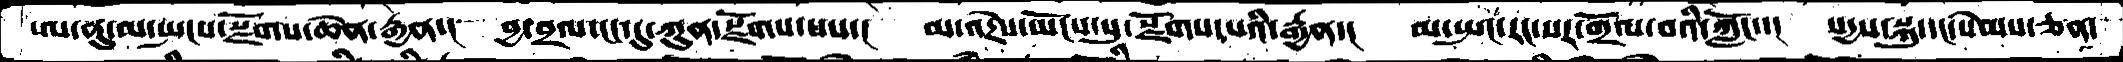ཨ་ནུ་མ་སྤངས་སྫོགས་ཆེན་རྒྱན་།  བྱ་བྲལ་ངང་དུ་ཀུན་སྫོགས་པས་།  མ་འདྲེས་ཡོངས་སུ་སྫོགས་པའི་རྒྱན་།  མ་སྤང་རང་སར་གྲོལ་བའི་ཀློང་་།  སདྱས་སྐུ་དང་སེམས་ཅན་
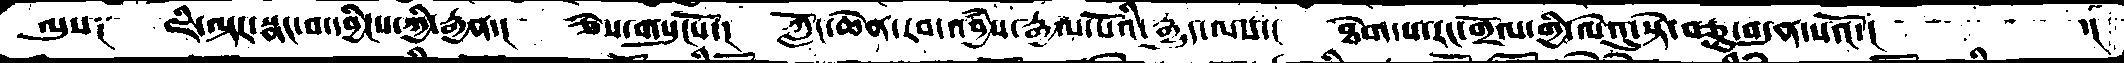ལུས་༑  ཇི་ལྟར་སྣང་བ་དབྱིངས་ཀྱི་རྒྱན་།  ཅེས་གསུངསོ་།  ཀློང་ཆེན་རབ་འབྱཾས་རྒྱལ་པོའི་རྒྱུད་ལས་།  ཐེག་པ་རང་གྲོལ་གྱི་ལེའུ་སྟེ་བཅུ་བདུན་པའོ་།     ་།
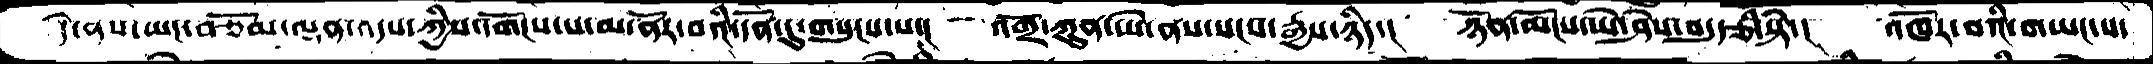དེ་ནས་ཡང་བཅོམ་ལྡན་འདས་ཀྱིས་དགོངས་པ་མ་ནོར་བའི་དོན་དུ་གསུངས་པ་།  འགྲོ་ཀུན་ཡེ་ནས་སངས་རྒྱས་ཉིད་།  ཉོན་མོངས་ཡེ་ཤེས་བདུད་རྩི་སྟེ་།  འཁོར་བའི་གཡང་ས་
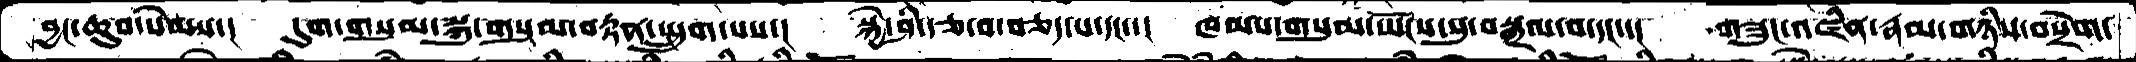བྱང་ཆུབ་སེམས་།  དུག་གསུམ་སྐུ་གསུམ་བརྟན་སྤྲུག་པས་།  སྐྱེ་ཤི་རྩ་བ་བཅད་པ་དང་་། ཁམས་གསུམ་ཡོངས་སུ་བསྒྲལ་བ་དང་་།  གཟུང་འཛིན་རྣམ་གཉིས་བསྲེག་
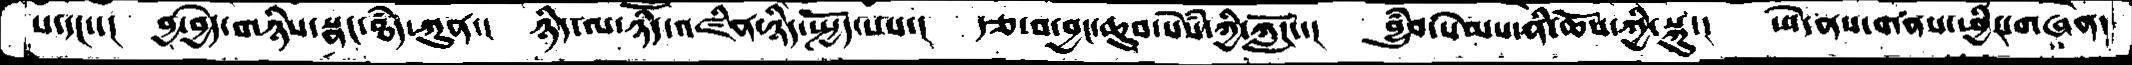པ་དང་་།  བྱ་བྱེད་གཉིས་སྣང་ཐཾད་ཀུན་།  ཉིད་ལ་ཉིད་འཛིན་ཉིད་སྤྱོད་པས་།  རྩ་བ་བྱང་ཆུབ་སེཾས་ཀྱི་ཀློང་་།  བྱུཾབ་སེམས་ནི་ཆོས་ཀྱི་སྐུ་།  ཡེ་ནས་གནས་ཕྱིར་གཞན་
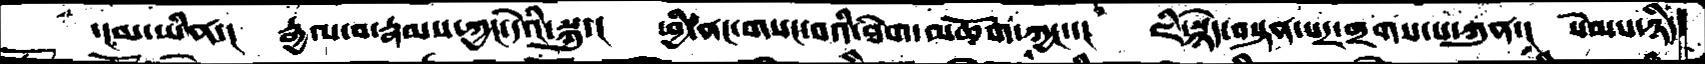་།མ་ཡིན་།  རྒྱལ་བ་རྣམས་ཀྱང་དེའི་སྐུ་།  ཕྱི་ནང་གསང་བའི་ཐེག་མཆོག་ཀྱང་་།  ཇི་སྙེད་བསྟན་པར་གྲགས་པ་ཀུན་།  སེམས་ཉིད་
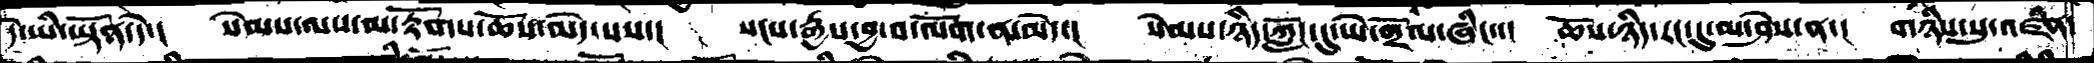དེ་ཡི་ཡྟོན་དེ་།  སེམས་ལས་མ་རྟོགས་ཆོས་མེད་པས་།  སངས་རྒྱས་བྱ་བ་ལོག་ན་མེད་།  སེམས་ཉིད་ཀློང་དུ་ཡེ་གྲོལ་ཞིང་་།  ཆོས་ཉིད་རང་དུ་མ་ཤེས་ན་།  གཉིས་སུ་འཛིན་
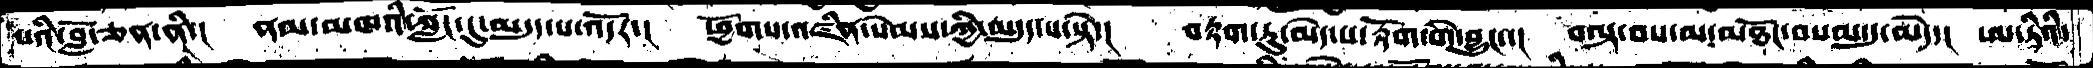པའི་བློ་ཅན་ནི་།  ནམ་མཁའི་ཀློང་དུ་མདུད་པ་འདོར་།  ཕྱོགས་འཛིན་སེམས་ཀྱི་མདུད་པ་སྟེ་།  བརྟག་ཏུ་མེད་པ་རྟོག་ག་ེབྱུང་་།  བལྟ་བས་མ་མཐོང་བསལ་དུ་མེད་།  ཨ་ཏིའི་
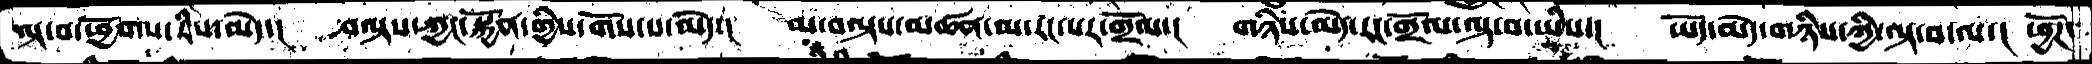ལྟ་བ་ཕྱོགས་རིས་མེད་།  བལྟས་ཀྱང་སྐྱོན་གྱིས་གོས་པ་མེད་།  མ་བལྟས་མཚན་མ་རང་སར་གྲོལ་།  གཉིས་མེད་རང་གྲོལ་ལྟ་བ་ཡིས་།  ཡོད་མེད་གཉིས་ཀྱི་ལྟ་བ་ལ་།  ཕྱོཌ་
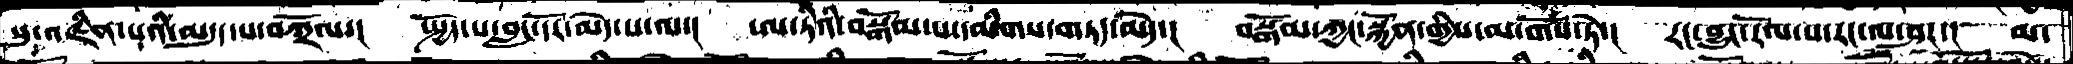སུ་འཛིན་པའི་མདུད་པ་བཀྲོལ་།  སྤྱོད་པ་བླང་དོར་མེད་པ་ལ་།  ཨ་ཏིའི་བསྒོམ་པ་དམིགས་གཏད་མེད་།  བསྒོམ་ཀྱང་སྐྱོན་གྱིས་མ་གོས་ཏེ་།  རང་བྱུང་རོལ་པ་རང་ལ་ཤར་།  མ་
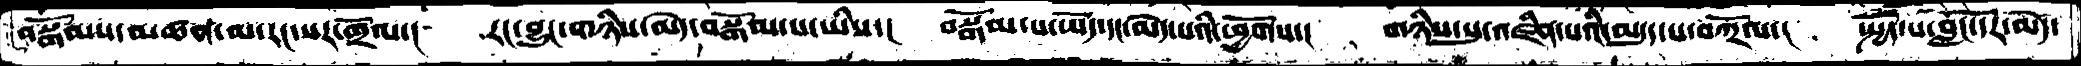བསྒོམས་མཚན་མ་རང་སར་གྲོལ་། རང་བྱུང་གཉིས་མེད་བསྒོམ་པ་ཡིས་། བསྒོམ་པ་ཡོད་དང་མེད་པའི་ཕྱོགས་། གཉིས་སུ་འཛིན་པའི་མདུད་པ་བཀྲོལ་། སྤྱོད་པ་བླང་དོར་མེད་
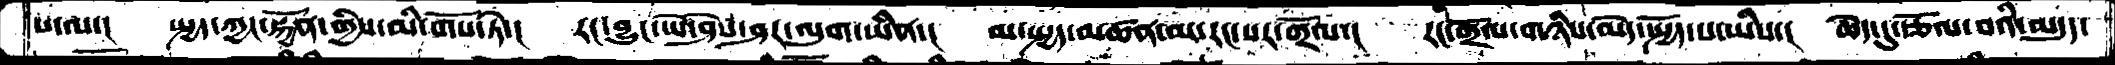པ་ལ་།  སྤྱད་ཀྱང་སྐྱོན་གྱིས་མི་གོས་ཏེ་།  རང་བྱུང་ཡེ་ཤེས་ཤར་ལུག་ཡིན་།  མ་སྤྱད་མཚན་མ་རང་སར་གྲོལ་། རང་གྲོལ་གཉིས་མེད་སྤྱོད་པ་ཡིས་།  ཆེད་དུ་རྩོལ་བའི་མདུད་
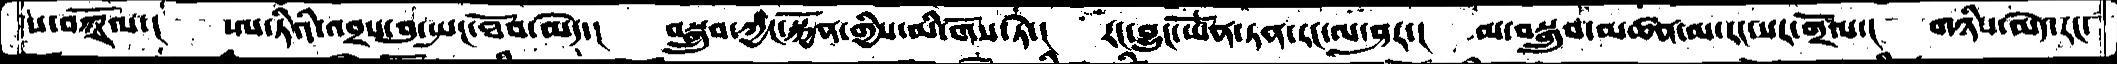ས་བཀྲོལ་།  ཨ་ཏིའི་འབྲས་བུ་སྤང་ཐོབ་མེད་།  བསྒྲུབ་ཀྱང་སྐྱོན་གྱིས་མི་གོས་ཏེ་།  རང་བྱུང་ཡོན་ཏན་རང་ལ་ཤར་།  མ་བསྒྲུབ་མཚན་མ་རང་སར་གྲོལ་། གཉིས་མེད་རང་
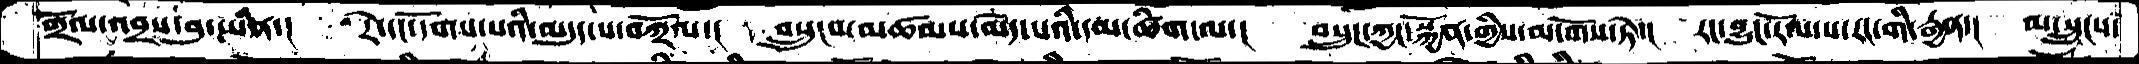གྲོལ་འབྲས་བུ་ཡིན་།  རེ་དང་དོགས་པའི་མདུད་པ་བཀྲོལ་།  བསྲུངས་མཚམས་མེད་པའི་དམ་ཚིག་ལ་།  བསྲུང་ཀྱང་སྐྱོན་གྱིས་མ་གོས་ཏེ་།  རང་བྱུང་རོལ་པ་རང་གི་རྒྱན་།  མ་སྲུངས་
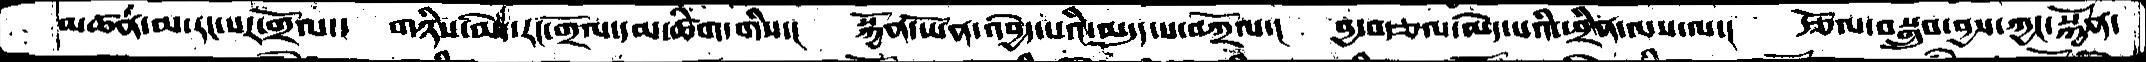མཚན་མ་རང་སར་གྲོལ་།  གཉིས་མེད་རང་གྲོལ་དམ་ཚིག་གིས་།  སྐྱོན་ཡོན་འབྱེད་པའི་མདུད་པ་བཀྲོལ་། བྱ་བརྩལ་མེད་པའི་ཕྲིན་ལས་ལ་།  རྩོལ་བསྒྲུབ་བྱས་ཀྱང་སྐྱོན་
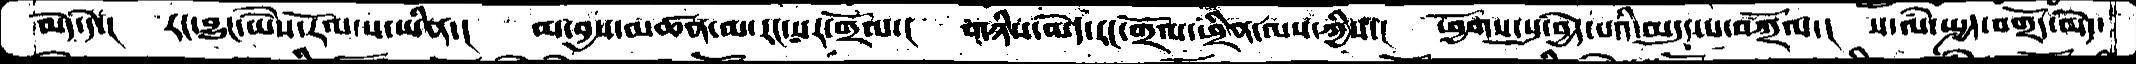མེད་དེ་།  རང་བྱུང་ཡཻས་རོལ་པ་ཡིན་།  མ་བྱས་མཚན་མ་རང་སར་གྲོལ་།  གཉིས་མེད་རང་གྲོལ་ཕྲིན་ལས་ཀྱིས་།  ཕྱོགས་སུ་བྱེད་པའི་མདུད་པ་བཀྲོལ་།  ས་ལཾ་སྤྱད་བགྲོད་མེད་
